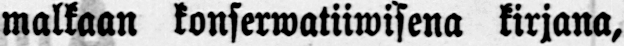malkaan konserwatiiwisena kirjana,
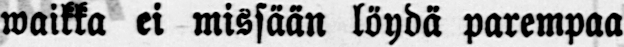waikka ei missään löydä parempaa
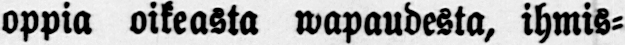oppia oikeasta wapaudesta, ihmis-
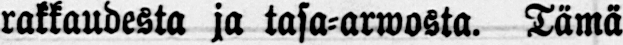rakkaudesta ja tasa-arwosta. Tämä
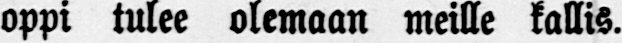oppi tulee olemaan meille kallis.
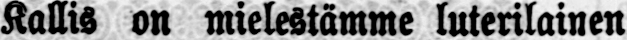Kallis on mielestämme luterilainen
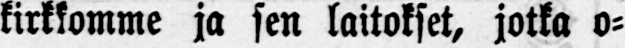kirkkomme ja sen laitokset, jotka o-
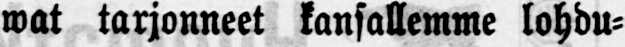wat tarjonneet kansallemme lohdu-
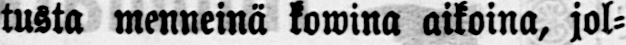tusta menneinä kowina aikoina, jol-
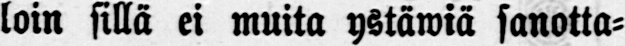loin sillä ei muita ystäwiä sanotta-
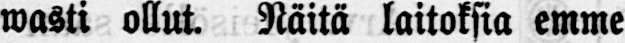wasti ollut. Näitä laitoksia emme
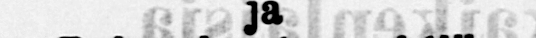ja
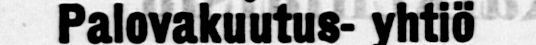Palovakuutus- yhtiö
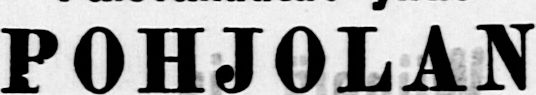POHJOLAN
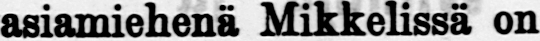asiamiehenä Mikkelissä on
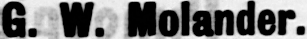G. W. Molander.
